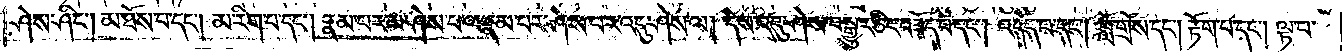ཤེས་ཤིང༌། མ་ཐོས་པ་དང༌། མ་རིག་པ་དང༌། རྣམ་པར་མ་ཤེས་པ་ལ་རྣམ་པར་ཤེས་པར་འདུ་ཤེས་ལ། དེས་འདུ་ཤེས་བསྒྱུར་ཅིང་བཟོད་པ་དང༌། འདོད་པ་དང༌། བློ་གྲོས་དང༌། རྟོག་པ་དང༌། ལྟ་བ་
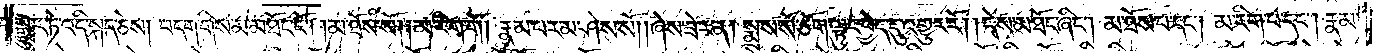བསྒྱུར་ཏེ་འདི་སྐད་ཅེས། བདག་གིས་མ་མཐོང་ངོ༌། །མ་ཐོས་སོ། །མ་རིག་གོ། རྣམ་པར་མ་ཤེས་སོ། །ཞེས་ཟེར་ན། སྨྲས་སོ་ཅོག་ལྟུང་བྱེད་དུ་འགྱུར་རོ། །དེས་མཐོང་ཞིང༌། མ་ཐོས་པ་དང༌། མ་རིག་པ་དང༌། རྣམ་
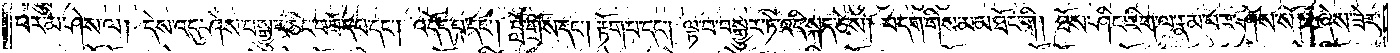པར་མ་ཤེས་ལ། དེས་འདུ་ཤེས་བསྒྱུར་ཅིང་བཟོད་པ་དང༌། འདོད་པ་དང༌། བློ་གྲོས་དང༌། རྟོག་པ་དང༌། ལྟ་བ་བསྒྱུར་ཏེ་འདི་སྐད་ཅེས། བདག་གིས་མ་མཐོང་གི། ཐོས་ཤིང་རིག་ལ་རྣམ་པར་ཤེས་སོ། །ཞེས་ཟེར་
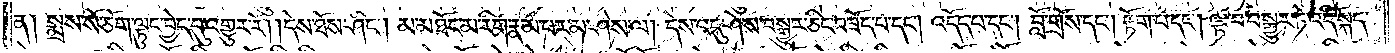ན། སྨྲས་སོ་ཅོག་ལྟུང་བྱེད་དུ་འགྱུར་རོ། །དེས་ཐོས་ཤིང༌། མ་མཐོང་མ་རིག་རྣམ་པར་མ་ཤེས་ལ། དེས་འདུ་ཤེས་བསྒྱུར་ཅིང་བཟོད་པ་དང༌། འདོད་པ་དང༌། བློ་གྲོས་དང༌། རྟོག་པ་དང༌། ལྟ་བ་བསྒྱུར་ཏེ་འདི་སྐད་
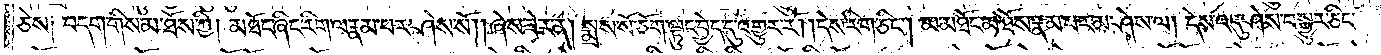ཅེས། བདག་གིས་མ་ཐོས་ཀྱི། མཐོང་ཞིང་རིག་ལ་རྣམ་པར་ཤེས་སོ། །ཞེས་ཟེར་ན། སྨྲས་སོ་ཅོག་ལྟུང་བྱེད་དུ་འགྱུར་རོ། །དེས་རིག་ཅིང༌། མ་མཐོང་མ་ཐོས་རྣམ་པར་མ་ཤེས་ལ། དེས་འདུ་ཤེས་བསྒྱུར་ཅིང་
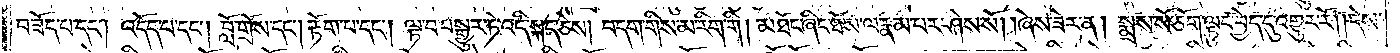བཟོད་པ་དང༌། འདོད་པ་དང༌། བློ་གྲོས་དང༌། རྟོག་པ་དང༌། ལྟ་བ་བསྒྱུར་ཏེ་འདི་སྐད་ཅེས། བདག་གིས་མ་རིག་གི། མཐོང་ཞིང་ཐོས་ལ་རྣམ་པར་ཤེས་སོ། །ཞེས་ཟེར་ན། སྨྲས་སོ་ཅོག་ལྟུང་བྱེད་དུ་འགྱུར་རོ། །དེས་
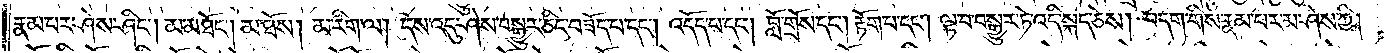རྣམ་པར་ཤེས་ཤིང༌། མ་མཐོང༌། མ་ཐོས། མ་རིག་ལ། དེས་འདུ་ཤེས་བསྒྱུར་ཅིང་བཟོད་པ་དང༌། འདོད་པ་དང༌། བློ་གྲོས་དང༌། རྟོག་པ་དང༌། ལྟ་བ་བསྒྱུར་ཏེ་འདི་སྐད་ཅེས། བདག་གིས་རྣམ་པར་མ་ཤེས་ཀྱི།
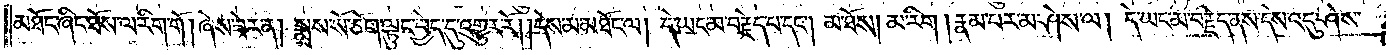མཐོང་ཞིང་ཐོས་ལ་རིག་གོ །ཞེས་ཟེར་ན། སྨྲས་སོ་ཅོག་ལྟུང་བྱེད་དུ་འགྱུར་རོ། །དེས་མ་མཐོང་ལ། དེ་ཡང་མ་བརྗེད་པ་དང༌། མ་ཐོས། མ་རིག །རྣམ་པར་མ་ཤེས་ལ། དེ་ཡང་མ་བརྗེད་ནས་དེས་འདུ་ཤེས་
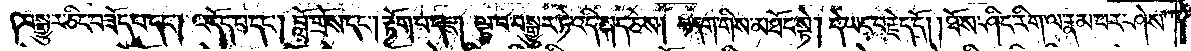བསྒྱུར་ཅིང་བཟོད་པ་དང༌། འདོད་པ་དང༌། བློ་གྲོས་དང༌། རྟོག་པ་དང༌། ལྟ་བ་བསྒྱུར་ཏེ་འདི་སྐད་ཅེས། བདག་གིས་མཐོང་སྟེ། དེ་ཡང་བརྗེད་དོ། །ཐོས་ཤིང་རིག་ལ་རྣམ་པར་ཤེས་
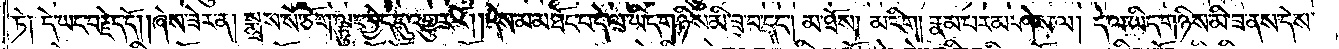ཏེ༑ དེ་ཡང་བརྗེད་དོ། །ཞེས་ཟེར་ན། སྨྲས་སོ་ཅོག་ལྟུང་བྱེད་དུ་འགྱུར་རོ། །དེས་མ་མཐོང་བ་དེ་ལ་ཡིད་གཉིས་མི་ཟ་བ་དང༌། མ་ཐོས། མ་རིག། རྣམ་པར་མ་ཤེས་ལ། དེ་ལ་ཡིད་གཉིས་མི་ཟ་ནས་དེས་
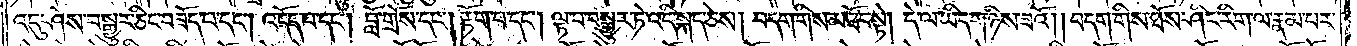འདུ་ཤེས་བསྒྱུར་ཅིང་བཟོད་པ་དང༌། འདོད་པ་དང༌། བློ་གྲོས་དང༌། རྟོག་པ་དང༌། ལྟ་བ་བསྒྱུར་ཏེ་འདི་སྐད་ཅེས། བདག་གིས་མཐོང་སྟེ། དེ་ལ་ཡིད་གཉིས་ཟའོ། །བདག་གིས་ཐོས་ཤིང་རིག་ལ་རྣམ་པར་
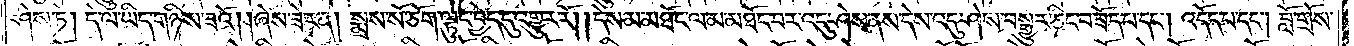ཤེས་ཏེ། དེ་ལ་ཡིད་གཉིས་ཟའོ། །ཞེས་ཟེར་ན། སྨྲས་སོ་ཅོག་ལྟུང་བྱེད་དུ་འགྱུར་རོ། །དེས་མ་མཐོང་ལ་མ་མཐོང་བར་འདུ་ཤེས་ནས་དེས་འདུ་ཤེས་བསྒྱུར་ཅིང་བཟོད་པ་དང༌། འདོད་པ་དང༌། བློ་གྲོས་
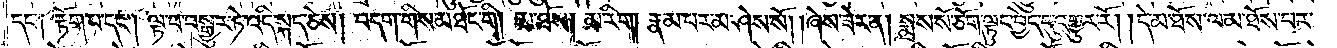དང་༑ རྟོག་པ་དང༌། ལྟ་བ་བསྒྱུར་ཏེ་འདི་སྐད་ཅེས། བདག་གིས་མཐོང་གི། །མ་ཐོས། མ་རིག། རྣམ་པར་མ་ཤེས་སོ། །ཞེས་ཟེར་ན། སྨྲས་སོ་ཅོག་ལྟུང་བྱེད་དུ་འགྱུར་རོ། །དེ་མ་ཐོས་ལ་མ་ཐོས་པར་
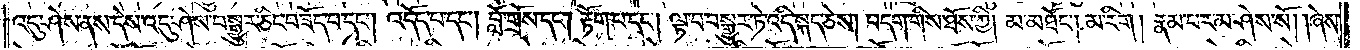འདུ་ཤེས་ནས་དེས་འདུ་ཤེས་བསྒྱུར་ཅིང་བཟོད་པ་དང༌། འདོད་པ་དང༌། བློ་གྲོས་དང༌། རྟོག་པ་དང༌། ལྟ་བ་བསྒྱུར་ཏེ་འདི་སྐད་ཅེས། བདག་གིས་ཐོས་ཀྱི། མ་མཐོང༌། མ་རིག། རྣམ་པར་མ་ཤེས་སོ། །ཞེས་
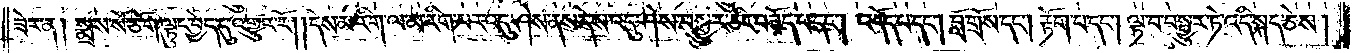ཟེར་ན། སྨྲས་སོ་ཅོག་ལྟུང་བྱེད་དུ་འགྱུར་རོ། །དེས་མ་རིག་ལ་མ་རིག་པར་འདུ་ཤེས་ནས་དེས་འདུ་ཤེས་བསྒྱུར་ཅིང་བཟོད་པ་དང༌། འདོད་པ་དང༌། བློ་གྲོས་དང༌། རྟོག་པ་དང༌། ལྟ་བ་བསྒྱུར་ཏེ་འདི་སྐད་ཅེས།
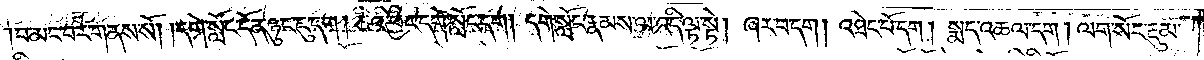བ་མང་བར་གནས་སོ། །དགེ་སློང་དོན་ཉུང་ངུ་དག། ཅིའི་ཕྱིར་དགེ་སློང་དག། དགེ་སློང་རྣམས་ལ་འདི་ལྟ་སྟེ། ཞར་བ་དག། འཐེང་པོ་དག །སྨད་འཆལ་དག། ལག་སོར་རྡུམ་
